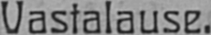Vastalause.
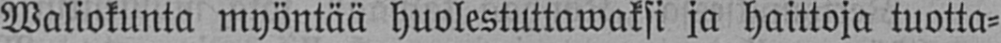Waliokunta myöntää huolestuttawaksi ja haittoja tuotta-
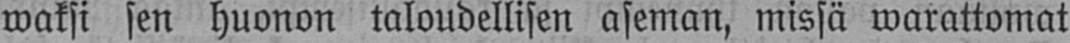waksi sen huonon taloudellisen aseman, missä warattomat
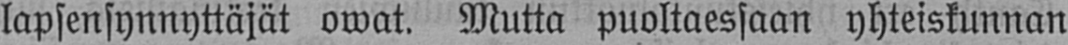lapsensynnyttäjät owat. Mutta puoltaessaan yhteiskunnan
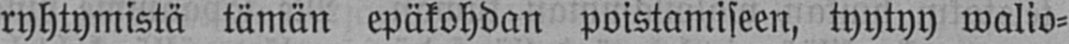ryhtymistä tämän epäkohdan poistamiseen, tyytyy walio-
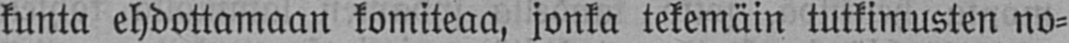kunta ehdottamaan komiteaa, jonka tekemäin tutkimusten no-
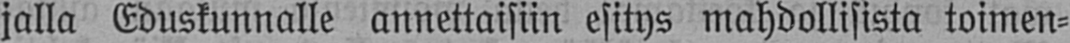jalla Eduskunnalle annettaisiin esitys mahdollisista toimen-
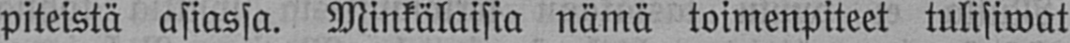piteistä asiassa. Minkälaisia nämä toimenpiteet tulisiwat
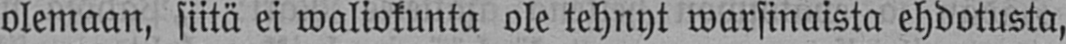olemaan, siitä ei waliokunta ole tehnyt warsinaista ehdotusta,
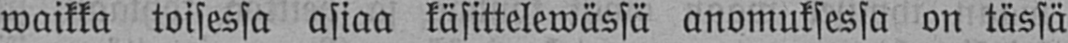waikka toisessa asiaa käsittelewässä anomuksessa on tässä
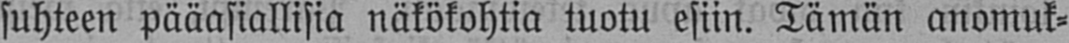suhteen pääasiallisia näkökohtia tuotu esiin. Tämän anomuk-
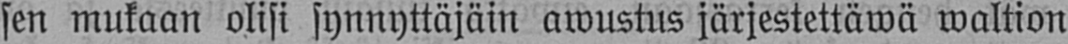sen mukaan olisi synnyttäjäin awustus järjestettäwä waltion
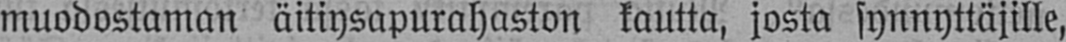muodostaman äitiysapurahaston kautta, josta synnyttäjille,
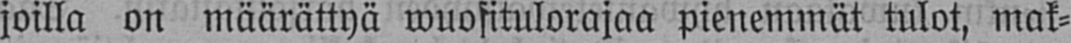joilla on määrättyä wuofitulorajaa pienemmät tulot, mak-
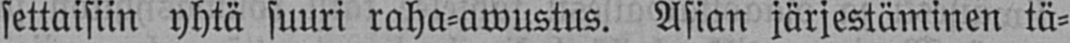settaisiin yhtä suuri raha-awustus. Asian järjestäminen tä-
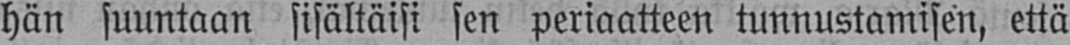hän suuntaan sisältäisi sen periaatteen tunnustamisen, että
